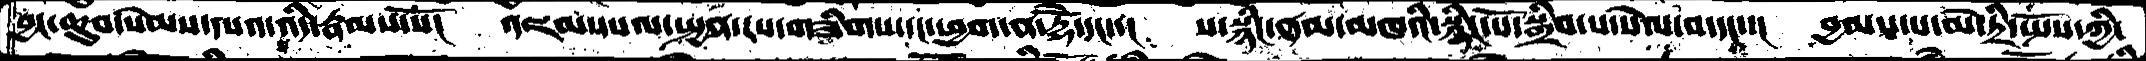བྱང་ཆུབ་སེམས་དཔའ་འདི་རྣམས་སོ།    འཇམ་དཔལ་སྤྱན་རས་གཟིགས་དང་ཕྱག་ན་རྡོེ་དང་་།   ས་སྙིང་ནམ་མཁའི་སྙིང་པོ་སྒྲིབ་པ་སེལ་བ་དང་་།  བྱམས་པ་མེ་ཏྲི་སྤོས་ཀྱི་
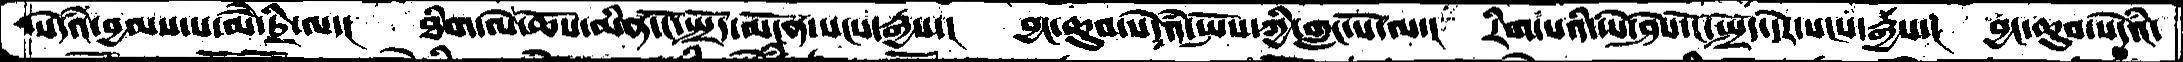སེདཾའ་བྱམས་པ་མཻ་ཏྲི་ལ་།  ཐིག་ལེ་ཆོས་མིན་ངོ་སྤྲོད་མངོན་སངས་རྒྱས་།  བྱང་ཆུབ་སེདཾའ་སྤོས་ཀྱི་གླང་པོ་ལ་།  རིག་པའི་ཡེ་ཤེས་ངོ་སྤྲོད་དེར་སངས་རྒྱས་།  བྱང་ཆུབ་སེདཾའ་
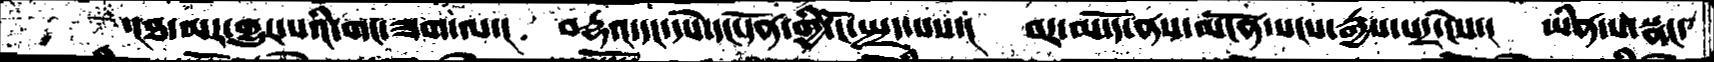་།ཐ་མར་གྱུར་པའི་གང་ཟག་ལ་།   བདྷའ་དང་དཔེ་དང་དོན་གྱི་ངོ་སྤྲད་པས་།  བར་མ་དོ་ནས་མངོན་སངས་རྒྱས་པར་ངེས་།  ཡིན་པ་སྣང་
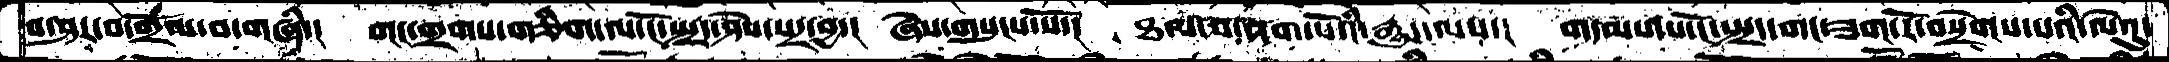བ་ཤར་བ་གྲོལ་བ་གཞི་།   གང་གྲགས་གཅིག་ལ་ངོ་སྤྲད་ཤེས་པར་བྱ་།  ཞེས་གསུངས་སོ་།  ཐལ་བ་ནག་པོའི་རྒྱུད་ལས་།  གདམས་པ་ངོ་སྤྲད་གང་ཟག་རོ་བསྲེགས་པའི་ལེའུ་
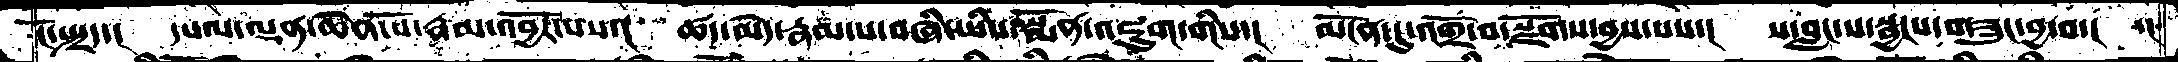ངོ་སྤྲད་།  དཔལ་ལྡན་ཆེན་པོ་རྣམ་འབྱོར་པས་།  ཚད་མེད་རྣམ་པ་བཞི་ཡིས་སྨོན་འཇུག་གིས་།  མངོན་དུ་འགྲོ་བ་སྫོགས་བྱས་པས་། ས་བླང་ས་སྦྱངས་གཟུང་བྱ་བ་།  ་ང
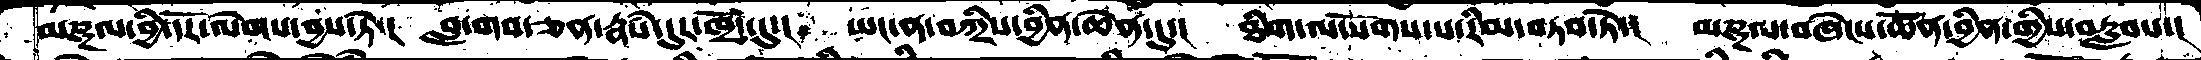མཎྜལ་བྱི་དོར་ལེགས་བྱས་ཏེ་།  བླ་གབ་ཅན་རྣཾས་དུར་ཁྲོད་དུ་།   ཡང་ན་བཀྲིས་བྱིན་ཆེན་དུ་།  ཐིག་ལ་སོགས་པ་རིམ་བཏབ་ཏེ་།  མཎྜལ་བཞེངས་ཆེན་བྱིན་གྱིས་བརླབས་།
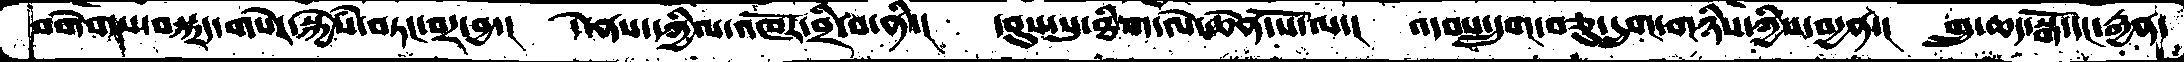བགེགས་བསྐྲད་གསེར་སྐྱེཾས་བཏང་བར་བྱ་།  དེ་ནས་དཀྱིལ་འཁོར་བྲི་བ་ནི་།  དབུས་སུ་ཐིག་ལེ་ཆེན་པོ་ལ་། འདབས་དྲུག་བཅུ་དྲུག་གཉིས་ཀྱིས་བདྱན་།  གྲུ་ཆད་སྒོ་དང་རྒྱན་
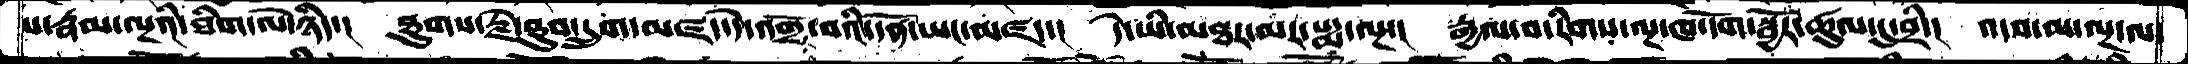པ་རྣམ་ལྔའི་ཐིག་ལེ་ཉིད་།  ཐུགས་རྗེ་ཐུབ་དྲུག་མཛད་དེ་འགྲོ་བའི་དོན་ཡང་མཛད་།  དེ་ཡི་མཐར་མར་པདྨ་ལྔ་།  རྒྱལ་བ་རིགས་ལྔ་ཁ་དོག་སྦྱོར་ཚུལ་དུ་བྲི་།  འདབ་མ་ལྔ་ལ་
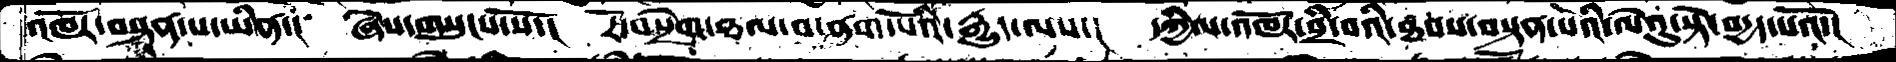འཁོར་བསྟན་པ་ཡིན་།  ཞེས་གསུངས་སོ་།  རོ་བསྲེག་ཐལ་བ་ནག་པོའི་རྒྱུད་ལས་།  དཀྱིལ་འཁོར་བྲི་བའི་ཐབས་བསྟན་པའི་ལེའུ་སྟེ་བདྱད་པའོ་།
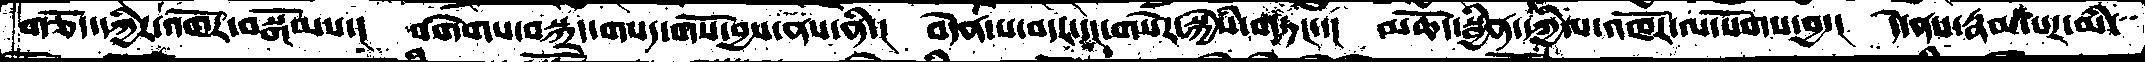གཅོད་དཀྱིར་འཁོར་བསྒོམས་།  བགེགས་བསྐྲད་གསད་གསོ་བྱས་ནས་ནི་།  བདེན་པ་བདར་དང་གསེར་སྐྱེཾས་གཏང་་།  མཆོད་སྦྱིན་དཀྱིལ་འཁོར་ལ་སོགས་བྱ་།  དེ་ནས་རྣམ་པར་མི་
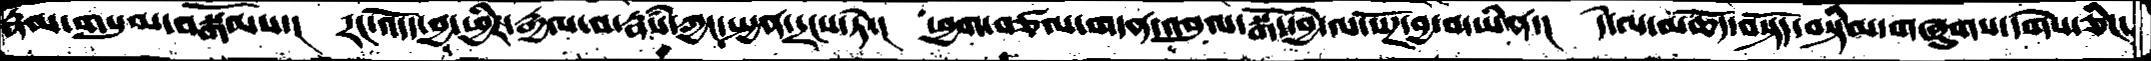རྣམ་གསུམ་བསྒོམས་།  རང་འདོད་བྱ་ཕྱིར་རྒྱལ་བ་རྣཾས་ཀྱང་སྤྱན་དྲངས་ཏེ་།  ཕྱག་བཙལ་གདན་འབུལ་སྒོ་དབྱེ་ལ་སོཌ་བྱ་བ་ཡིན་།  དེ་ལ་མཆོད་བསྟོད་བསྟིམ་གཞུགས་དགེས་ཅིང་
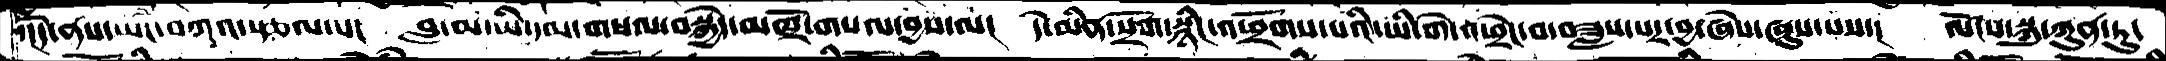་།དེ་ནས་ཡང་བཀའ་སྩལ་པ།  བླ་མ་ཡི་དམ་གསལ་བསྐྱེད་མཁྲོ་གསལ་བྱས་ལ།  དེ་མིན་སྲོག་སྙིང་འཕྲོགས་པའི་ཡི་གེ་འཕྲེང་བ་བཟླས་པར་བྱ་ཞེས་ཞུས་པས་།  ལོངས་སྐུ་ཀུན་ཏུ་
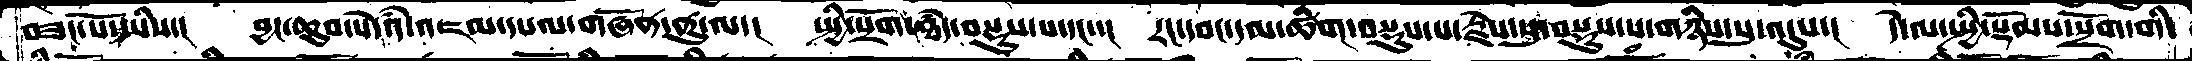བཟང་པོ་ཡིས་།  བྱང་ཆུབ་སེདཾའ་འཇམ་དཔལ་གཞོན་ནུ་ལ་།  སྤྱི་སྲོག་ཐདཾ་བསྡུས་པ་དང་་།  རང་དབང་དམ་ཚིག་བསྡུས་པ་རྗེས་སུ་བསྡུས་པ་གཉིས་སུ་འདུས་།  དེ་ལ་སྤྱི་སྡོམས་སྲོག་གི་
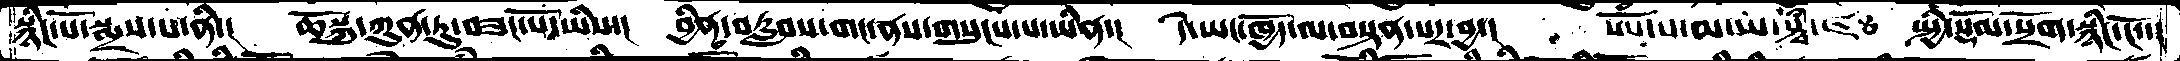སྙིང་པོ་སྨྲས་པ་ནི་།  ཆོསྐུ་ཀུན་ཏུ་བཟང་པོ་ཡིས་།  བྱིན་བརླབས་གང་ནས་གསུངས་པ་ཡིན་།  དེ་ཡང་ཁྱོད་ལ་བསྟན་པར་བྱ་།  ཨོཾ་ས་མ་ཡ་སྟྭཾ་ཛཿ  སྤྱི་སྡོམ་སྲོག་སྙིང་ངོ་་།
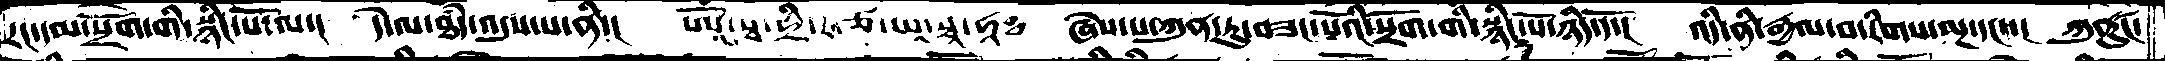རང་དམ་སྲོག་གི་སྙིང་པོ་ལ་།  དེ་ལ་ཐདཾ་འདུས་པ་ནི་།  ཨཱོཾ་སྭ་ཧྲི་ར་ཙ་ཡཱ་སྭ་ཧཱཿ  ཞེས་པ་ཀུན་ཏུ་བཟང་པོའི་སྲོག་གི་སྙིང་པོ་ཉིད་དོ་།  འདི་ནི་རྒྱལ་བ་རིགས་ལྔ་དང་་།  ཀུནུཾང་
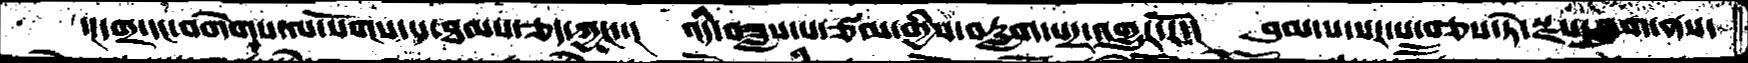་།དགྲ་དང་བགེགས་ལ་སོགས་པ་ཐམས་ཅད་ཀྱང་་།   འདི་བཟླས་པ་ཙམ་གྱིས་བརླག་པར་འགྱུར་རོ་།  བུམ་པ་སར་པ་བཅས་ཏེ་སྫས་བླུག་ནས་
